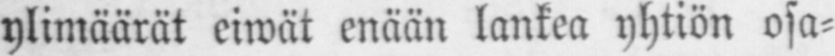ylimäärät eiwät enään lankea yhtiön osa-
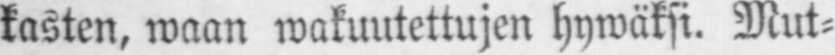kasten, waan wakuutettujen hywäksi. Mut-
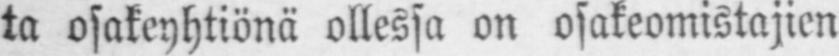ta osakeyhtiönä ollessa on osakeomistajien
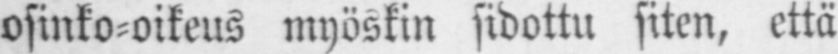osinko-oikeus myöskin sidottu siten, että
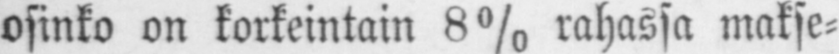osinko on korkeintain 8% rahassa makse-
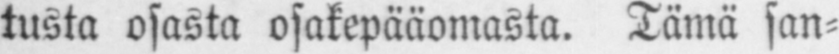tusta osasta osakepääomasta. Tämä san-
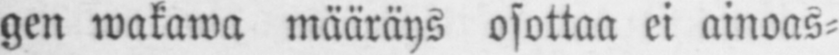gen wakawa määräys osottaa ei ainoas-
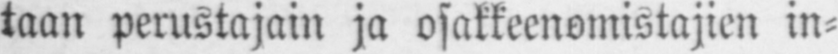taan perustajain ja osakkeenomistajien in-
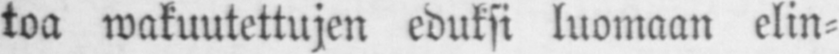toa wakuutettujen eduksi luomaan elin-
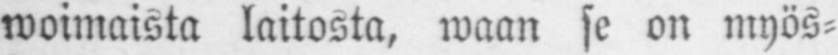woimaista laitosta, waan se on myös-
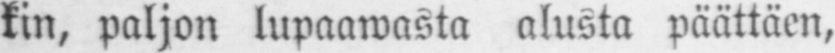kin, paljon lupaawasta alusta päättäen,
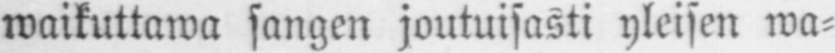waikuttawa sangen joutuisasti yleisen wa-
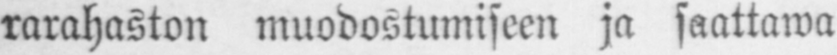rarahaston muodostumiseen ja saattawa
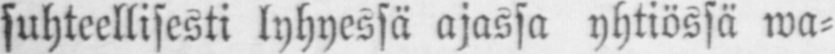suhteellisesti lyhyessä ajassa yhtiössä wa-
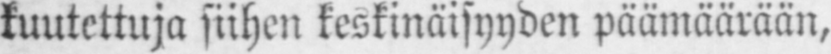kuutettuja siihen keskinäisyyden päämäärään,
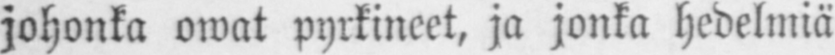johonka owat pyrkineet, ja jonka hedelmiä
